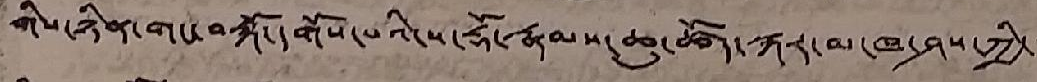གིས་ཉིན་གང་བསྐོ་དགོས་པའི་ས་རྡོ་རྣམས་ཆུ་ཚོད་སྐར་མ་ཁ་ཤས་ཀྱི་་་
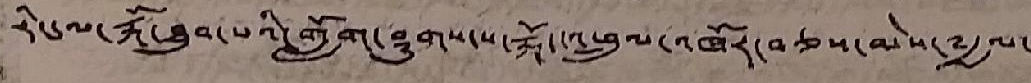རིང་ལ་རྐོ་ཐུབ་པའི་གློག་ཤུགས་ས་རྐོ་འཕྲུལ་འཁོར་བཅས་མེས་༸རྒྱལ་་་
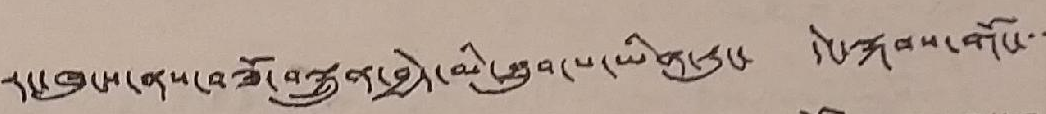རང་ཁུངས་ནས་བཟོ་བསྐྲུན་བྱེད་མི་ཐུབ་པ་ཡིན་རུང་ དེང་སྐབས་གོང་་་་
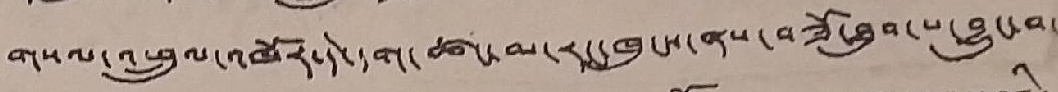གསལ་འཕྲུལ་འཁོར་དེ་དག་ཚང་མ་རང་ཁུངས་ནས་བཟོ་ཐུབ་པ་བྱུང་བ་
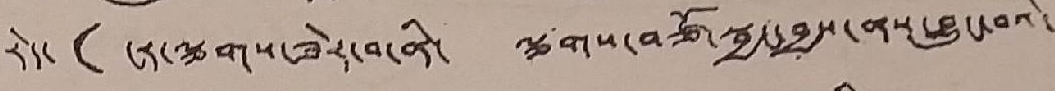རེད་ ( ངར་ལྕགས་ཟེར་བ་ནི་ ལྕགས་བཙོ་སྦྱང་བྱས་ནས་བྱུང་བའི་
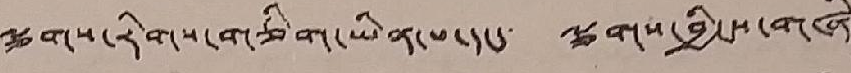ལྕགས་རིགས་གཅིག་ཡིན་པ་དང་ ལྕགས་བྱིངས་གཞི
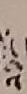འི
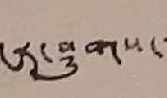་ངར་ཤུགས་་
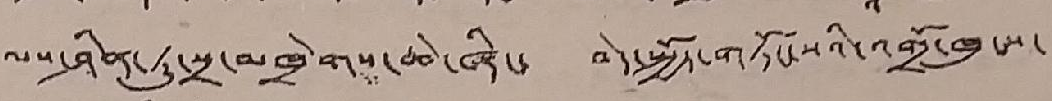ལས་ཤིན་ཏུ་སྲ་མཁྲེགས་ཆེ་ཞིང་ བདེ་སྤྱོད་གཏོང་སའི་འགྲོ་ཁུངས་
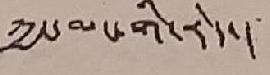ཀྱང་མང་གི་རེད་།
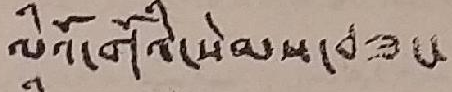ལིའོ་གོའི་སེམས་བཟང་
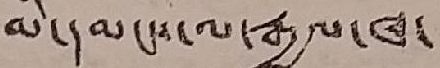མི་དམངས་ལ་རྒྱལ་ཁབ་
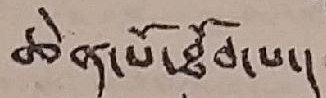ཆེན་པོ་ཐོབ་པ་།
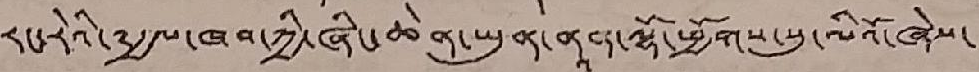རང་རེའི་༸རྒྱལ་ཁབ་ཀྱི་ཞིང་ཆེན་ཡུན་ནཱན་ལྷོ་ཕྱོགསསུ་མིའོ་ཞེས་
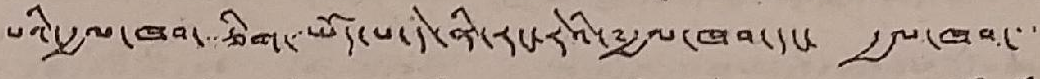པའི་རྒྱལ་ཁབ་་་ཅིག་་ཡོད་པ་དེ་ནི་རང་རེའི་༸རྒྱལ་ཁབ་དང་ རྒྱལ་ཁབ་་་་
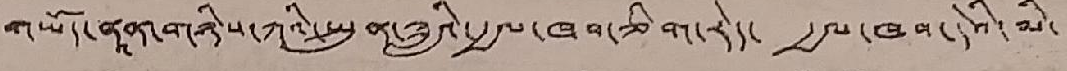གཡོད་ནནཱ་གཉིས་ཀའི་སྤུན་ཟླའི་རྒྱལ་ཁབ་ཅིག་རེད་ རྒྱལ་ཁབ་དེའི་མི་
